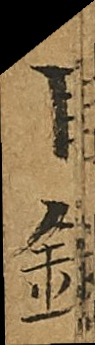目錄
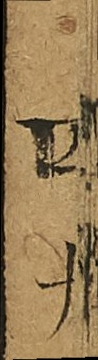四九
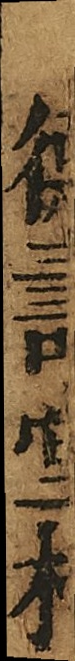德壽堂梓
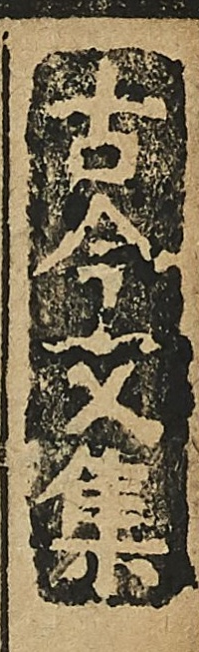古今文集
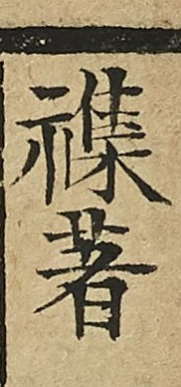雜著
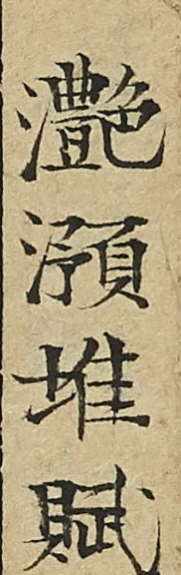灔澦堆賦
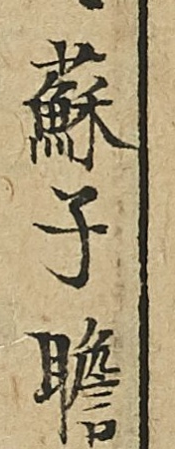蘇子瞻
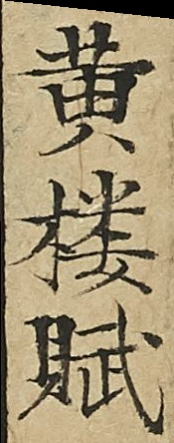黄樓賦
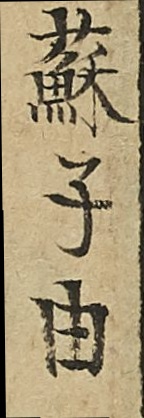蘇子由
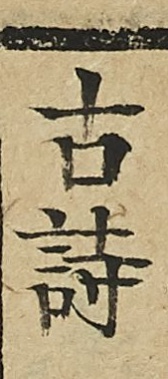古詩
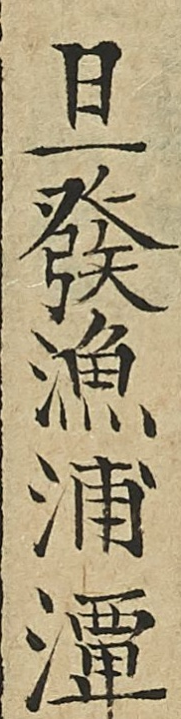旦發漁浦潭
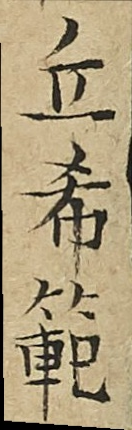丘希範
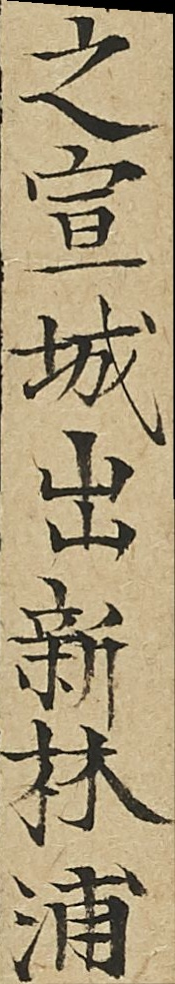之宣城出新林浦
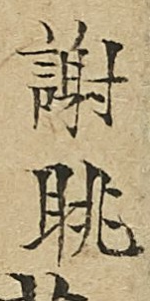謝朓
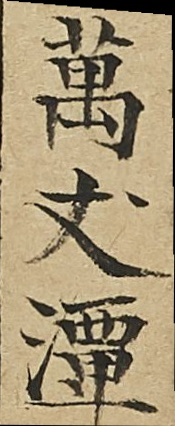萬丈潭
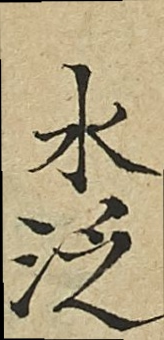水泛
